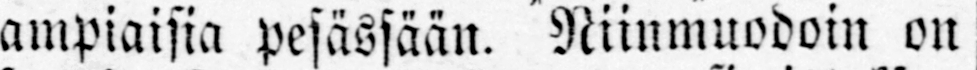ampiaisia pesässään. Niinmuodoin on
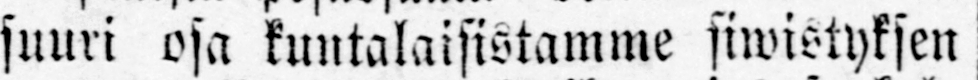suuri osa kuntalaisistamme siwistyksen
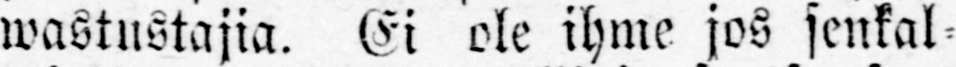wastustajia. Ei ole ihme jos senkal-
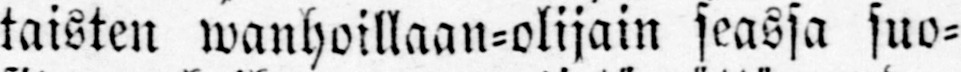taisten wanhoillaan-olijain seassa suo-
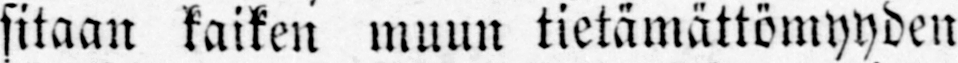sitaan kaiken muun tietämättömyyden
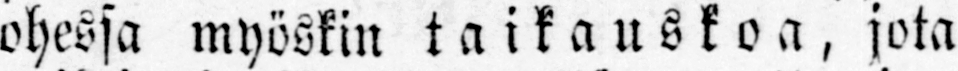ohessa myöskin taikauskoa, jota
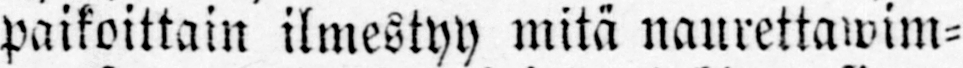paikoittain ilmestyy mitä naurettawim-
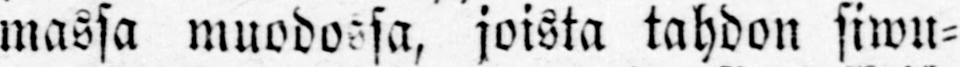massa muodossa, joista tahdon siwu-
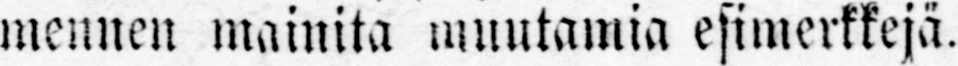mennen mainita muutamia esimerkkejä.
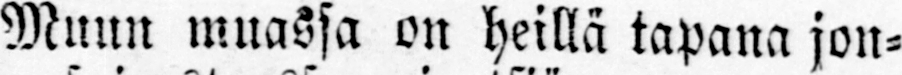Muun muassa on heillä tapana jon-
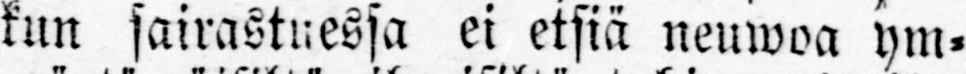kun sairastuessa ei etsiä neuwoa ym-
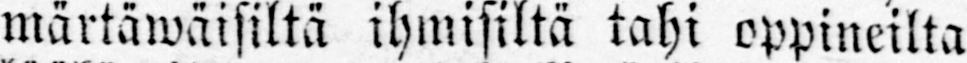märtäwäisiltä ihmisiltä tahi oppineilta
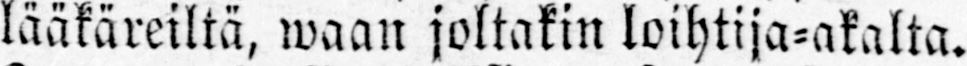lääkäreiltä, waan joltakin loihtija-akalta.
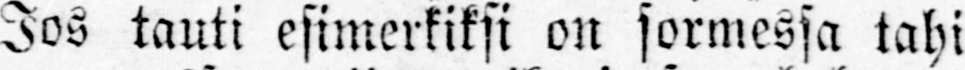Jos tauti esimerkiksi on sormessa tahi
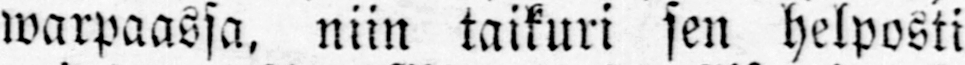warpaassa, niin taikuri sen helposti
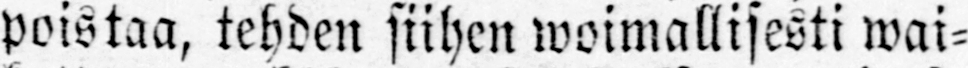poistaa, tehden siihen woimallisesti wai-
